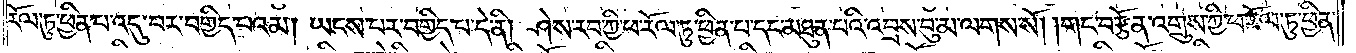རོལ་ཏུ་ཕྱིན་པ་འདུ་བར་བགྱིད་པའམ། ཡངས་པར་བགྱིད་པ་དེ་ནི། ཤེས་རབ་ཀྱི་ཕ་རོལ་ཏུ་ཕྱིན་པ་དང་མཐུན་པའི་འབྲས་བུ་མ་ལགས་སོ། །གང་བརྩོན་འགྲུས་ཀྱི་ཕ་རོལ་ཏུ་ཕྱིན་
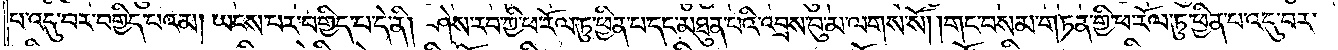པ་འདུ་བར་བགྱིད་པའམ། ཡངས་པར་བགྱིད་པ་དེ་ནི། ཤེས་རབ་ཀྱི་ཕ་རོལ་ཏུ་ཕྱིན་པ་དང་མཐུན་པའི་འབྲས་བུ་མ་ལགས་སོ། །གང་བསམ་གཏན་གྱི་ཕ་རོལ་ཏུ་ཕྱིན་པ་འདུ་བར་
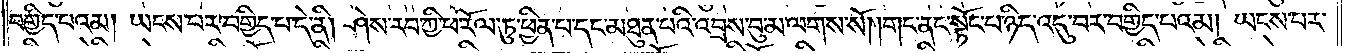བགྱིད་པའམ། ཡངས་པར་བགྱིད་པ་དེ་ནི། ཤེས་རབ་ཀྱི་ཕ་རོལ་ཏུ་ཕྱིན་པ་དང་མཐུན་པའི་འབྲས་བུ་མ་ལགས་སོ། །གང་ནང་སྟོང་པ་ཉིད་འདུ་བར་བགྱིད་པའམ། ཡངས་པར་
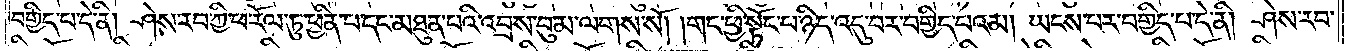བགྱིད་པ་དེ་ནི། ཤེས་རབ་ཀྱི་ཕ་རོལ་ཏུ་ཕྱིན་པ་དང་མཐུན་པའི་འབྲས་བུ་མ་ལགས་སོ། །གང་ཕྱི་སྟོང་པ་ཉིད་འདུ་བར་བགྱིད་པའམ། ཡངས་པར་བགྱིད་པ་དེ་ནི། ཤེས་རབ་
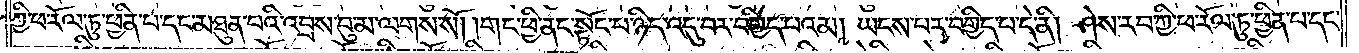ཀྱི་ཕ་རོལ་ཏུ་ཕྱིན་པ་དང་མཐུན་པའི་འབྲས་བུ་མ་ལགས་སོ། །གང་ཕྱི་ནང་སྟོང་པ་ཉིད་འདུ་བར་བགྱིད་པའམ། ཡངས་པར་བགྱིད་པ་དེ་ནི། ཤེས་རབ་ཀྱི་ཕ་རོལ་ཏུ་ཕྱིན་པ་དང་
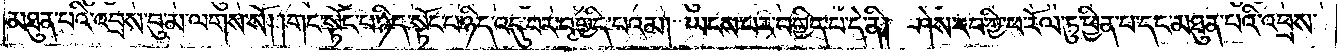མཐུན་པའི་འབྲས་བུ་མ་ལགས་སོ། །གང་སྟོང་པ་ཉིད་སྟོང་པ་ཉིད་འདུ་བར་བགྱིད་པའམ། ཡངས་པར་བགྱིད་པ་དེ་ནི། ཤེས་རབ་ཀྱི་ཕ་རོལ་ཏུ་ཕྱིན་པ་དང་མཐུན་པའི་འབྲས་
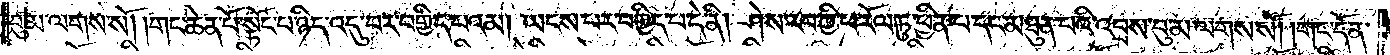བུ་མ་ལགས་སོ། །གང་ཆེན་པོ་སྟོང་པ་ཉིད་འདུ་བར་བགྱིད་པའམ། ཡངས་པར་བགྱིད་པ་དེ་ནི། ཤེས་རབ་ཀྱི་ཕ་རོལ་ཏུ་ཕྱིན་པ་དང་མཐུན་པའི་འབྲས་བུ་མ་ལགས་སོ། །གང་དོན་
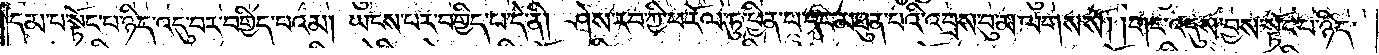དམ་པ་སྟོང་པ་ཉིད་འདུ་བར་བགྱིད་པའམ། ཡངས་པར་བགྱིད་པ་དེ་ནི། ཤེས་རབ་ཀྱི་ཕ་རོལ་ཏུ་ཕྱིན་པ་དང་མཐུན་པའི་འབྲས་བུ་མ་ལགས་སོ། །གང་འདུས་བྱས་སྟོང་པ་ཉིད་
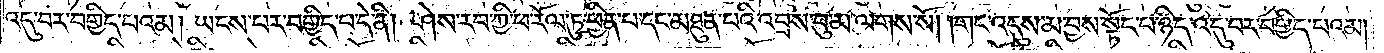འདུ་བར་བགྱིད་པའམ། ཡངས་པར་བགྱིད་པ་དེ་ནི། ཤེས་རབ་ཀྱི་ཕ་རོལ་ཏུ་ཕྱིན་པ་དང་མཐུན་པའི་འབྲས་བུ་མ་ལགས་སོ། །གང་འདུས་མ་བྱས་སྟོང་པ་ཉིད་འདུ་བར་བགྱིད་པའམ།
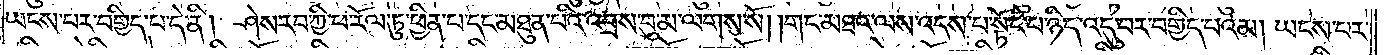ཡངས་པར་བགྱིད་པ་དེ་ནི། ཤེས་རབ་ཀྱི་ཕ་རོལ་ཏུ་ཕྱིན་པ་དང་མཐུན་པའི་འབྲས་བུ་མ་ལགས་སོ། །གང་མཐའ་ལས་འདས་པ་སྟོང་པ་ཉིད་འདུ་བར་བགྱིད་པའམ། ཡངས་པར་
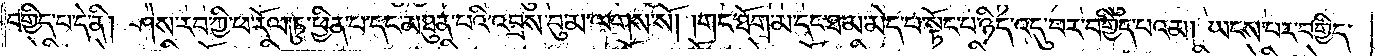བགྱིད་པ་དེ་ནི། ཤེས་རབ་ཀྱི་ཕ་རོལ་ཏུ་ཕྱིན་པ་དང་མཐུན་པའི་འབྲས་བུ་མ་ལགས་སོ། །གང་ཐོག་མ་དང་ཐ་མ་མེད་པ་སྟོང་པ་ཉིད་འདུ་བར་བགྱིད་པའམ། ཡངས་པར་བགྱིད་
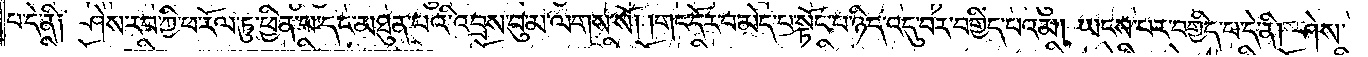པ་དེ་ནི༑ ཤེས་རབ་ཀྱི་ཕ་རོལ་ཏུ་ཕྱིན་པ་དང་མཐུན་པའི་འབྲས་བུ་མ་ལགས་སོ། །གང་དོར་བ་མེད་པ་སྟོང་པ་ཉིད་འདུ་བར་བགྱིད་པའམ། ཡངས་པར་བགྱིད་པ་དེ་ནི། ཤེས་
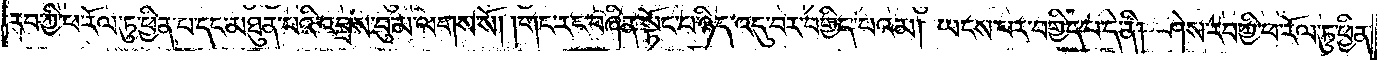རབ་ཀྱི་ཕ་རོལ་ཏུ་ཕྱིན་པ་དང་མཐུན་པའི་འབྲས་བུ་མ་ལགས་སོ། །གང་རང་བཞིན་སྟོང་པ་ཉིད་འདུ་བར་བགྱིད་པའམ། ཡངས་པར་བགྱིད་པ་དེ་ནི། ཤེས་རབ་ཀྱི་ཕ་རོལ་ཏུ་ཕྱིན་
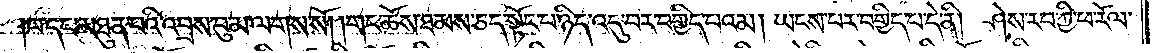པ་དང་མཐུན་པའི་འབྲས་བུ་མ་ལགས་སོ། །གང་ཆོས་ཐམས་ཅད་སྟོང་པ་ཉིད་འདུ་བར་བགྱིད་པའམ། ཡངས་པར་བགྱིད་པ་དེ་ནི། ཤེས་རབ་ཀྱི་ཕ་རོལ་
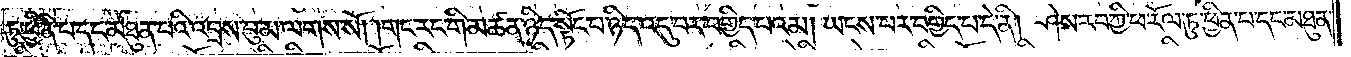ཏུ་ཕྱིན་པ་དང་མཐུན་པའི་འབྲས་བུ་མ་ལགས་སོ། །གང་རང་གི་མཚན་ཉིད་སྟོང་པ་ཉིད་འདུ་བར་བགྱིད་པའམ། ཡངས་པར་བགྱིད་པ་དེ་ནི། ཤེས་རབ་ཀྱི་ཕ་རོལ་ཏུ་ཕྱིན་པ་དང་མཐུན་
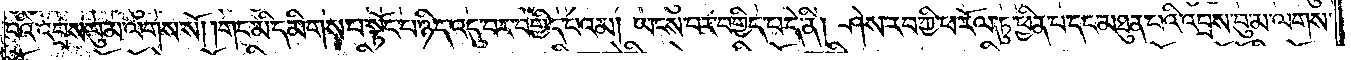པའི་འབྲས་བུ་མ་ལགས་སོ། །གང་མི་དམིགས་པ་སྟོང་པ་ཉིད་འདུ་བར་བགྱིད་པའམ། ཡངས་པར་བགྱིད་པ་དེ་ནི། ཤེས་རབ་ཀྱི་ཕ་རོལ་ཏུ་ཕྱིན་པ་དང་མཐུན་པའི་འབྲས་བུ་མ་ལགས་
